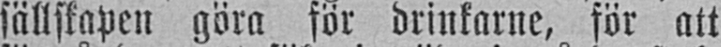sällskapen göra för drinkarne, för att
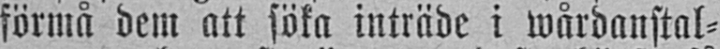förmå dem att söka inträde i wårdanstal-
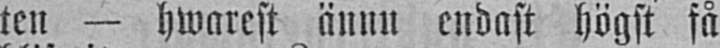ten — hwarest ännu endast högst få
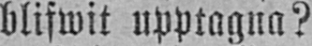blifwit upptagna?
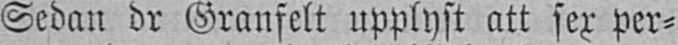Sedan dr Granfelt upplyst att ser per-
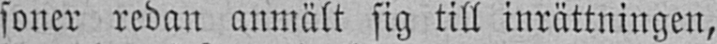soner redan anmält sig till inrättningen,
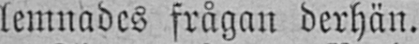lemnades frågan derhän.
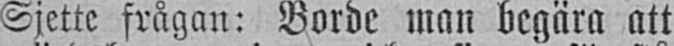Sjette frågan: Borde man begära att
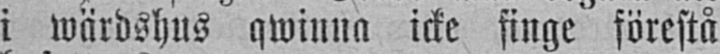i wärdshus qwinna icke finge förestå
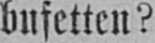bufetten?
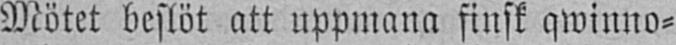Mötet beslöt att uppmana finsk qwinno-
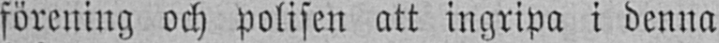förening och polisen att ingripa i denna
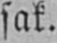sak.
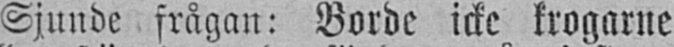Sjunde frågan: Borde icke krogarne
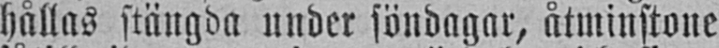hållas stängda under söndagar, åtminstone
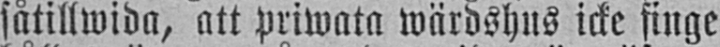såtillwida, att priwata wärdshus icke finge
